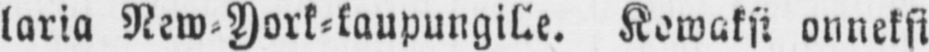laria New-York-kaupungille. Kowaksi onneksi
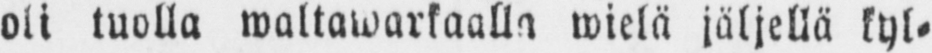oli tuolla waltawarkaalla wielä jäljellä kyl-
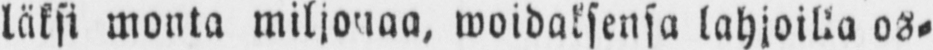läksi monta miljonaa, woidaksensa lahjoilla os-
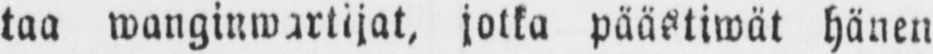taa wanginwartijat, jotka päästiwät hänen
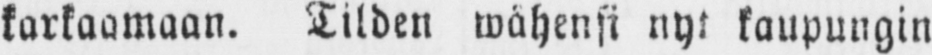karkaamaan. Tilden wähensi nyt kaupungin
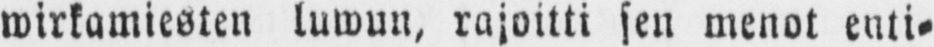wirkamiesten luwun, rajoitti sen menot enti-
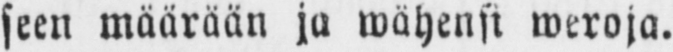seen määrään ja wähensi weroja.
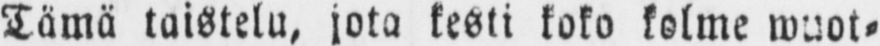Tämä taistelu, jota kesti koko kolme wuot-
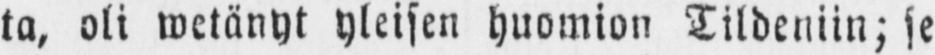ta, oli wetänyt yleisen huomion Tildeniin; se
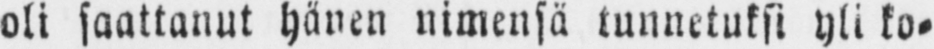oli saattanut hänen nimensä tunnetuksi yli ko-
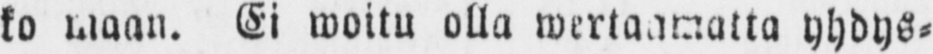ko maan. Ei woitu olla wertaamatta yhdys-
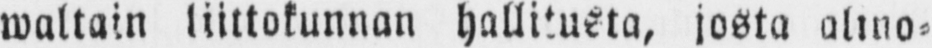waltain liittokunnan hallitusta, josta alino-
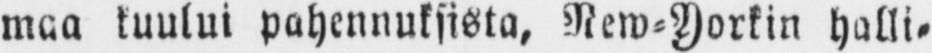maa kuului pahennuksista, New-Yorkin halli-
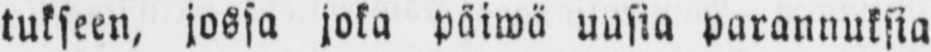tukseen, jossa joka päiwä uusia parannuksia
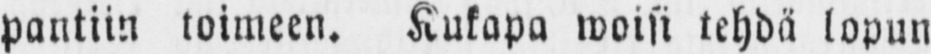pantiin toimeen. Kukapa woisi tehdä lopun
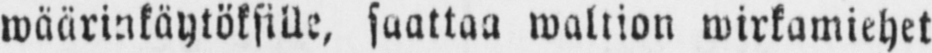wäärinkäytöksille, saattaa waltion wirkamiehet
